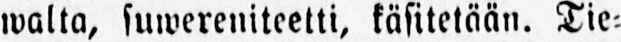walta, suwereniteetti, käsitetään. Tie-
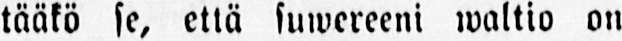tääkö se, että suwereeni waltio on
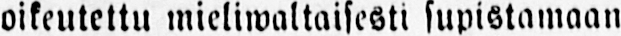oikeutettu mieliwaltaisesti supistamaan
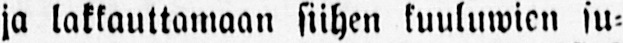ja lakkauttamaan siihen kuuluwien su-
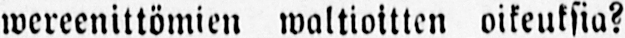wereenittömien waltioitten oikeuksia?
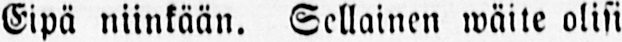Eipä niinkään. Sellainen wäite olisi
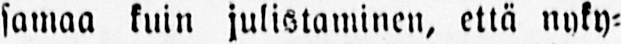samaa kuin julistaminen, että nyky-
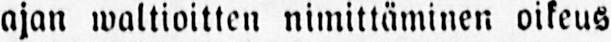ajan waltioitten nimittäminen oikeus
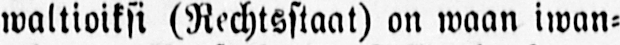waltioiksi (Rechtsstaat) on waan iwan-
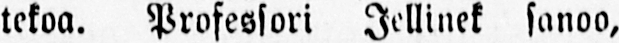tekoa. Prosessori Jellinek sanoo,
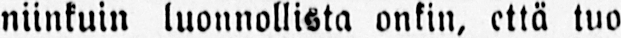niinkuin luonnollista onkin, että tuo
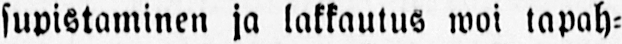supistaminen ja lakkautus woi tapah-
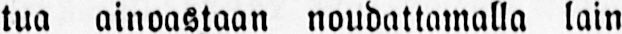tua ainoastaan noudattamalla lain
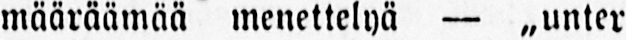määräämää menettelyä — „unter
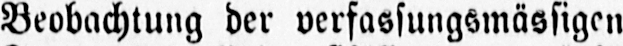Beobachtung der versassungsmässigen
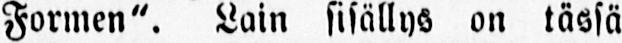Formen". Lain sisällys on tässä
